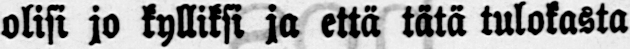olisi jo kylliksi ja että tätä tulokasta
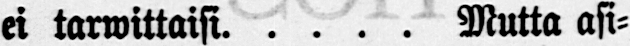ei tarwittaisi. . . . . Mutta asi-
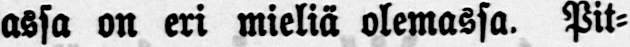assa on eri mieliä olemassa. Pit-
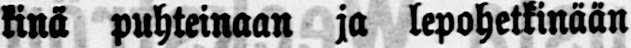kinä puhteinaan ja lepohetkinään
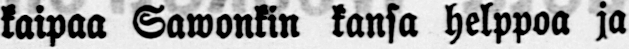kaipaa Sawonkin kansa helppoa ja
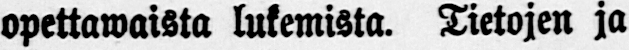opettawaista lukemista. Tietojen ja
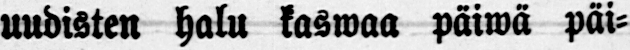uudisten halu kaswaa päiwä päi-
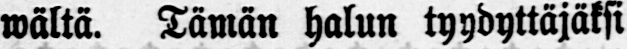wältä. Tämän halun tyydyttäjäksi
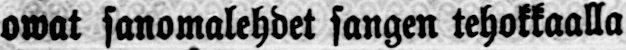owat sanomalehdet sangen tehokkaalla
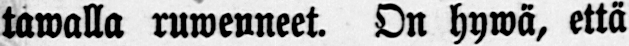tawalla ruwenneet. On hywä, että
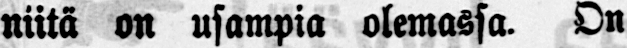niitä on usampia olemassa. On
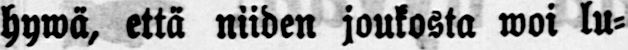hywä, että niiden joukosta woi lu-
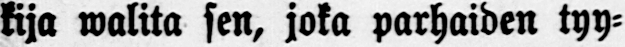kija walita sen, joka parhaiden tyy-
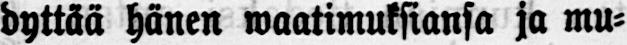dyttää hänen waatimuksiansa ja mu-
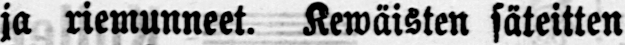ja riemunneet. Kewäisten säteitten
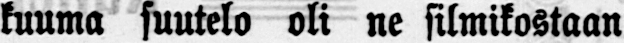kuuma suutelo oli ne silmikostaan
